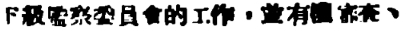下級監察委員會的工作，並有權審查、
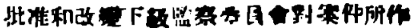批准和改變下級監察委員會對案件所作
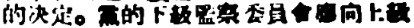的決定。黨的下級監察委員會應向上級
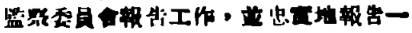監察委員會報告工作，並忠實地報告一
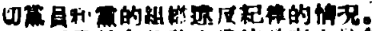切黨員和黨的組織違反紀律的情況。
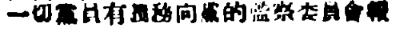一切黨員有義務向黨的監察委員會報
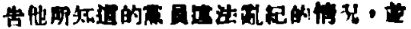告他所知道的黨員違法亂紀的情況，並
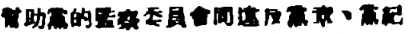幫助黨的監察委員會同違反黨章、黨紀
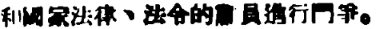和國家法律、法令的黨員進行鬥爭。
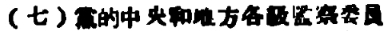（七）黨的中央和地方各級監察委員
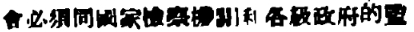會必須同國家檢察機關和各級政府的監
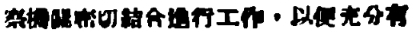察機關密切結合進行工作，以便充分有
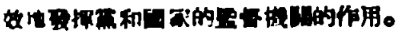效地發揮黨和國家的監督機關的作用。
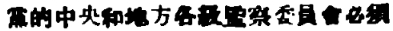黨的中央和地方各級監察委員會必須
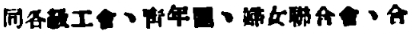同各級工會、青年團、婦女聯合會、合
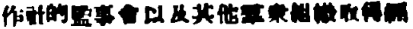作社的監事會以及其他羣衆組織取得經
